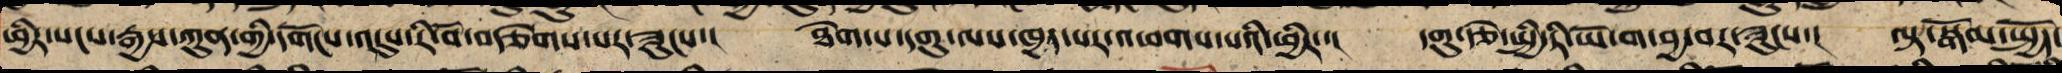ཕྱིར་སངས་རྒྱས་ཀུན་གྱི་དགོངས་འདུས་རི་བོ་བརྩེགས་པར་ཟུངས་། ཐེག་པ་དགུ་ལས་ཁྱད་པར་འཕགས་པའི་ཕྱིར་་། དགུ་རྩེ་སྤྱི་ཏི་ཡོ་ག་བྱ་བར་ཟུངས་། ལྟ་སྒོམ་སྤྱོད་
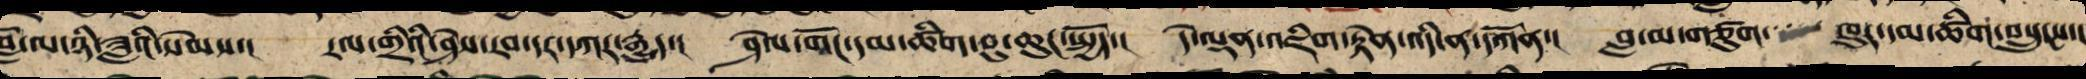བློ་ལ་ཉི་ཟླའི་སེམས་། རལ་གྲིའི་ཤེས་རབ་དར་དཀར་རྒྱུད་། ཤེལ་གོང་དམ་ཚིག་བུ་ཆུང་སྤྱོད་། དེ་ལྡན་འཇིག་རྟེན་འདི་ན་དཀོན་། བླ་མ་གཙུག་ ཁུར་དམ་ཚིག་བསྲུངས་།
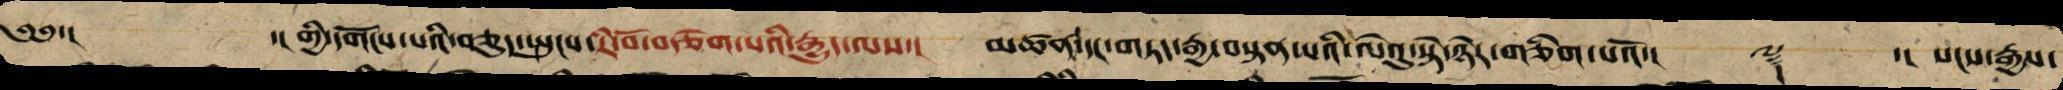༄༅་། ་། གྱི་དགོངས་པའི་བཅུད་སྤུངས་རི་བོ་བརྩེགས་པའི་རྒྱུད་ལས་། མཚན་དང་གཏད་རྒྱ་བསྟན་པའི་ལེའུ་སྟེ་ཉེར་གཅིག་པའོ་།། ༈ ་། སངས་རྒྱས་
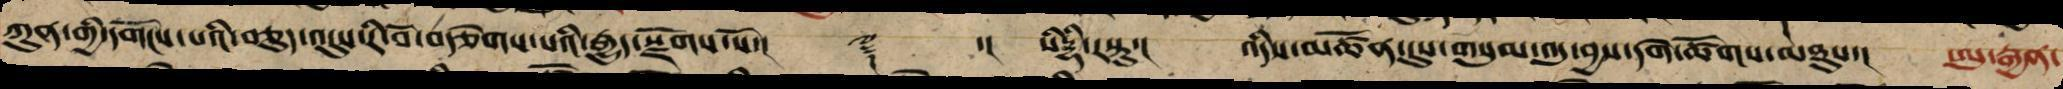ཀུན་གྱི་དགོངས་པའི་བཅུད་བདུས་རི་བོ་བརྩེགས་པའི་རྒྱུད་སྫོགས་སོ་།། ༈ ་། སིདྡྷི་རསྟུ་། འདིས་མཚོན་དུས་གསུམ་འདུ་བྱས་དགེ་ཚོགས་མཐུས་། ཨུ་རྒྱན་
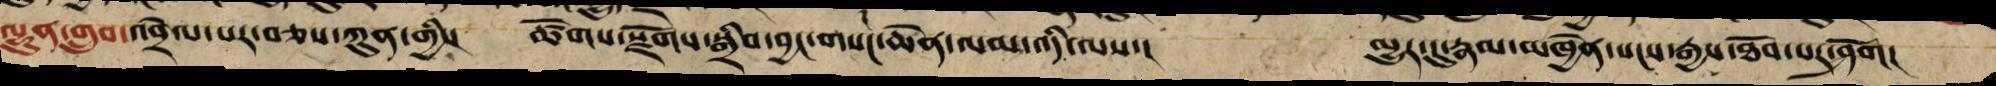ལྷུན་གྲུབ་འབྲེལ་པར་བཅས་ཀུན་གྱི་། ཚོགས་རྫོགས་སྒྲིབ་བྱང་གསང་ཆེན་ལམ་འདི་ལས་། མྱུར་དུ་རྣམ་མཁྱེན་སངས་རྒྱས་ཐོབ་པར་ཤོག།
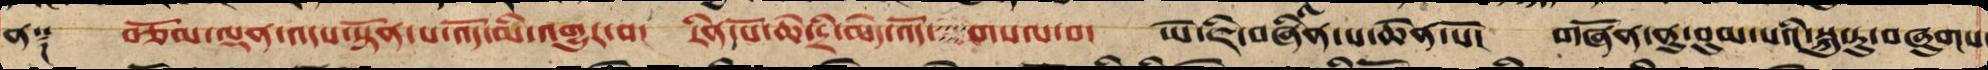ན༑ བཅོམ་ལྡན་འདས་སྟོན་པ་འོད་མི་འགྱུར་བ་ རིན་པོ་ཆེ་དྲི་མེད་འོད་ གསལ་བ། ཡེ་ཇི་བཞིན་པ་ཆེན་པོ། གཞོན་ནུ་བུམ་པའི་སྐུ་རུ་བཞུགས་
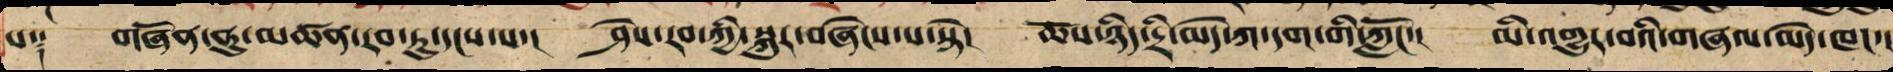པ༑ གཞོན་ནུའི་མཚན་རབ་ཏུ་དངས་པ་། ཤེས་རབ་ཀྱི་སྐུར་བཞེངས་པ་སྟེ། ཆོས་ཉིད་དྲི་མེད་ཀ་དག་གི་ཀློང་། མི་འགྱུར་བའི་གཞལ་མེད་ཁང་།
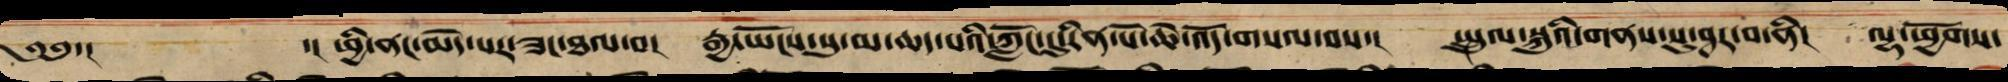༄༅་། ་། ཕྱི་ནང་མེད་པར་ཟང་ཐལ་བ། རྒྱ་ཡོངས་སུ་མ་ཆད་པའི་ཀློང་དུ་རིན་པོ་ཆེ་འོད་གསལ་བས་། སྤྲུལ་སྐུའི་གནས་སུ་ཤར་བ་ནི། ལྷ་ཕྱོགས་
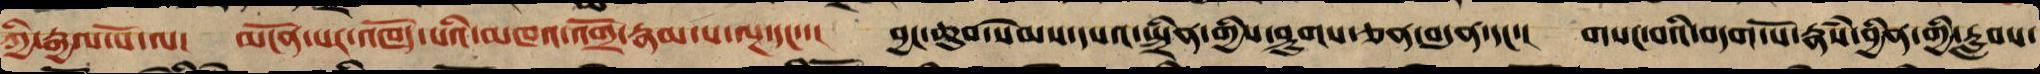ཀྱི་རྒྱལ་པོ་ལ། མངོན་པར་འཁོད་པའི་མཁའ་འགྲོ་རྣམ་པ་ལྔ་དང་་། བྱང་ཆུབ་སེམས་དཔའ་སྤྲིན་གྱི་ཤུགས་ཅན་བདུན་དང་། གསང་བའི་བདག་པོ་རྣཾས་བྱིན་གྱི་རླབས་
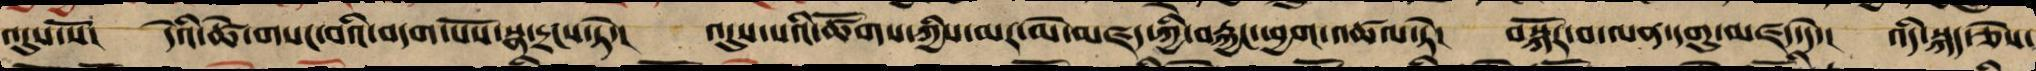འདུས་སོ། དེའི་ཚེ་གསང་བའི་བདག་པོས་སྣ་དྲངས་ཏེ་། འདུས་པའི་ཚོགས་ཀྱིས་མར་མེ་མཛད་ལ་བརྐྱང་ཕྱག་འཚལ་ཏེ། བསྐོར་བ་ལན་དགུ་མཛད་དེ་། འདི་སྐད་ཅེས་
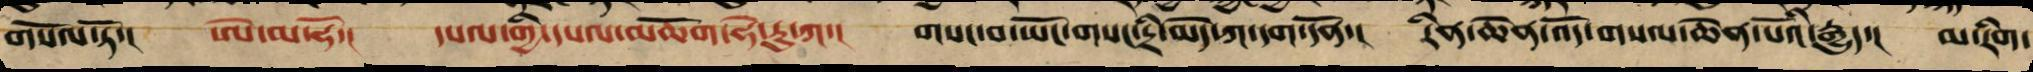གསོལ་ཏོ་། ཨེ་མ་ཧོ་། དཔལ་གྱི་དཔལ་མཆོག་ཧེ་རུ་ཀ་། གསང་བ་ཡོང་གསང་དྲི་མེད་ཀ་དག་དོན་། རིན་ཆེན་འོད་གསལ་ཆེན་པོའི་རྒྱུད་། མ་རིག་
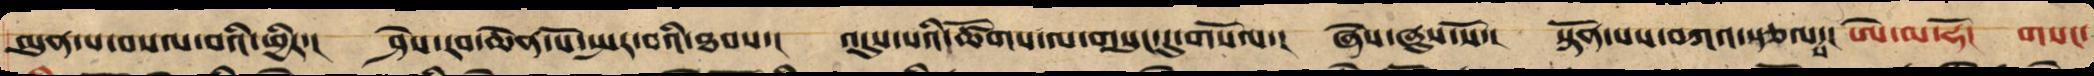མུན་པ་བསལ་བའི་ཕྱིར་།    ཤེས་རབ་ཆེན་པོ་སྤར་བའི་ཐབས་།    འདུས་པའི་ཚོགས་ལ་གསུངས་དུ་གསོལ།   ཞེས་ཞུས་སོ་།    སྟོན་པས་བཀའ་སྩལ་པ་།    ཨེ་མ་ཧོ། གསང་
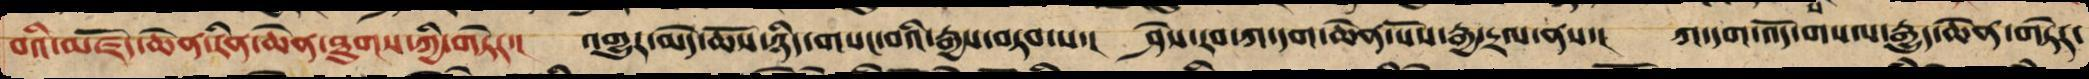བའི་མཛོད་ཆེན་རིན་ཆེན་ཐུགས་ཀྱི་གཏེར་། འགྱུར་མེད་ཆོས་ཉིད་གསང་བའི་རྒྱས་བཏབ་པ་། ཤེས་རབ་ཀ་དག་ཆེན་པོས་རྒྱ་དྲལ་ནས་། ཀ་དག་འོད་གསལ་རྒྱུད་ཆེན་གཏེར་
